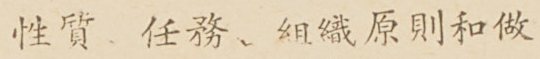性質、任務、組織原則和做
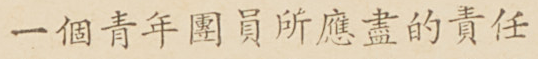一個青年團員所應盡的責任
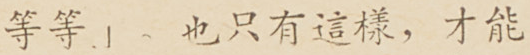等等」。也只有這樣，才能
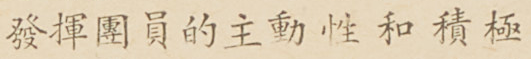發揮團員的主動性和積極
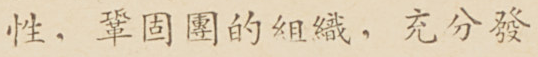性，鞏固團的組織，充分發
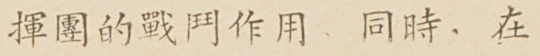揮團的戰鬥作用。同時，在
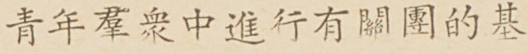青年羣衆中進行有關團的基
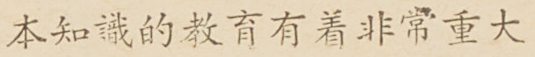本知識的教育有着非常重大
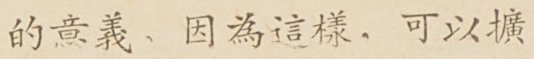的意義、因為這樣，可以擴
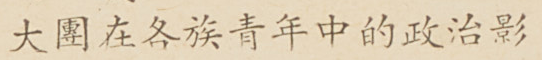大團在各族青年中的政治影
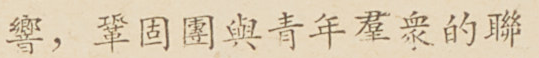響，鞏固團與青年羣衆的聯
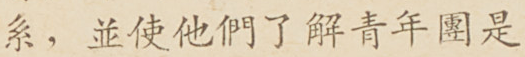系，並使他們了解青年團是
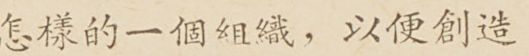怎樣的一個組織，以便創造
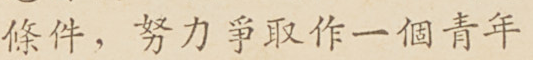條件，努力爭取作一個青年
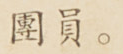團員。
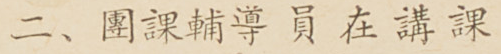二、團課輔導員在講課
